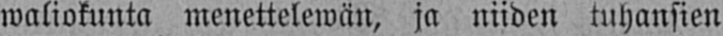waliokunta menettelewän, ja niiden tuhansien
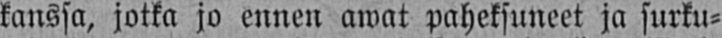kanssa, jotka jo ennen awat paheksuneet ja surku-
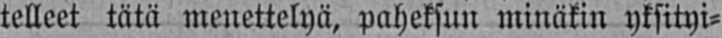telleet tätä menettelyä, paheksun minäkin yksityi-
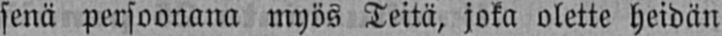senä persoonana myös Teitä, joka olette heidän
